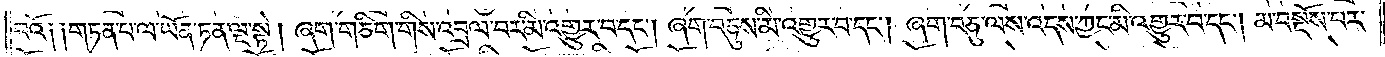བའོ༑ ༑གཏན་པ་ལ་ཡོན་ཏན་ལྔ་སྟེ། ཞག་གཅིག་གིས་འབྲལ་བར་མི་འགྱུར་བ་དང༌། ཞག་བཅུས་མི་འགྱུར་བ་དང༌། ཞག་བཅུ་ལས་འདས་ཀྱང་མི་འགྱུར་བ་དང༌། མ་བསྔོས་པར་
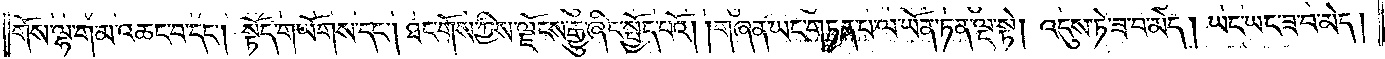གོས་ལྷག་མ་འཆང་བ་དང༌། སྟོད་གཡོགས་དང༌། ཐང་གོས་ཀྱིས་ལྗོངས་རྒྱུ་ཞིང་སྤྱོད་པའོ། །གཞན་ཡང་གཏན་པ་ལ་ཡོན་ཏན་ལྔ་སྟེ། འདུས་ཏེ་ཟ་བ་མེད། ཡང་ཡང་ཟ་བ་མེད།
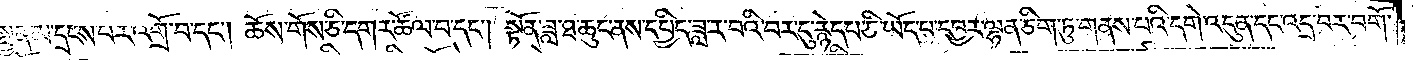སྤྱན་མ་དྲངས་པར་འགྲོ་བ་དང༌། ཆོས་གོས་ཅི་དགར་ཚོལ་བ་དང༌། སྟོན་ཟླ་ཐ་ཆུང་ནས་དཔྱིད་ཟླ་ར་བའི་བར་དུ་རྙེད་པ་ཅི་ཡོད་པ་དབྱར་ལྷན་ཅིག་ཏུ་གནས་པའི་དགེ་འདུན་དང་འདྲ་བར་བགོ་
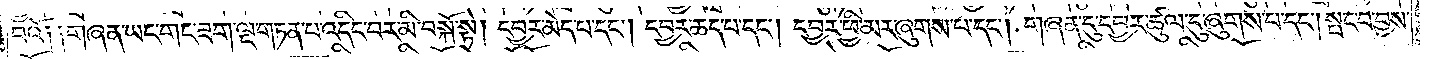བའོ༑ ༑གཞན་ཡང་གང་ཟག་ལྔ་གཏན་པ་འདིང་བར་མི་བསྐོ་སྟེ། དབྱར་མེད་པ་དང༌། དབྱར་ཆད་པ་དང༌། དབྱར་ཕྱི་མར་ཞུགས་པ་དང༌། གཞན་དུ་དབྱར་ཚུལ་དུ་ཞུགས་པ་དང༌། སྤང་བ་བྱས་
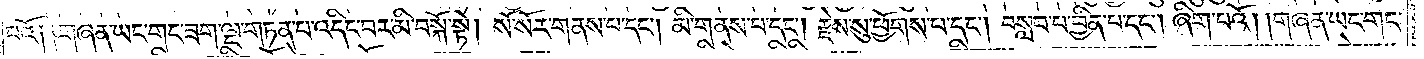པའོ༑ ༑གཞན་ཡང་གང་ཟག་ལྔ་གཏན་པ་འདིང་བར་མི་བསྐོ་སྟེ། སོ་སོར་གནས་པ་དང༌། མི་གནས་པ་དང༌། རྗེས་སུ་ཕྱོགས་པ་དང༌། བསླབ་པ་བྱིན་པ་དང༌། ཞིག་པའོ། །གཞན་ཡང་གང་
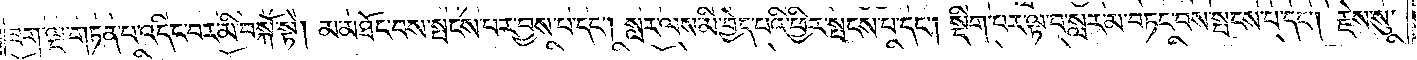ཟག་ལྔ་གཏན་པ་འདིང་བར་མི་བསྐོ་སྟེ། མ་མཐོང་བས་སྤངས་པར་བྱས་པ་དང༌། སླར་ལས་མི་བྱེད་པའི་ཕྱིར་སྤངས་པ་དང༌། སྡིག་པར་ལྟ་བ་སླར་མ་བཏང་བས་སྤངས་པ་དང༌། རྗེས་སུ་
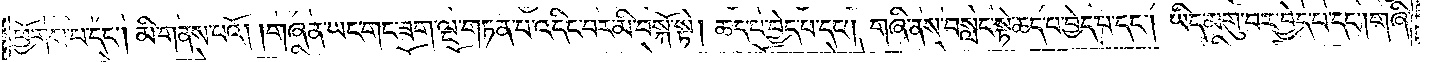ཕྱོགས་པ་དང༌། མི་གནས་པའོ། །གཞན་ཡང་གང་ཟག་ལྔ་གཏན་པ་འདིང་བར་མི་བསྐོ་སྟེ། ཆད་པ་བྱེད་པ་དང༌། གཞི་ནས་བསླང་སྟེ་ཆད་པ་བྱེད་པ་དང༌། ཡིད་མགུ་བར་བྱེད་པ་དང༌། གཞི་
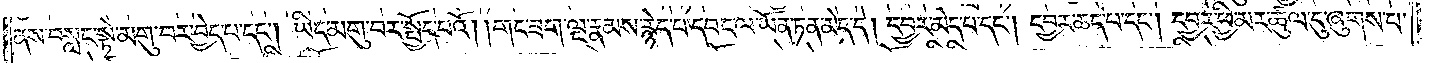ནས་བསླང་སྟེ་མགུ་བར་བྱེད་པ་དང༌། ཡིད་མགུ་བར་སྤྱོད་པའོ། །གང་ཟག་ལྔ་རྣམས་རྙེད་པ་དབང་ལ་ཡོན་ཏན་མེད་དེ། དབྱར་མེད་པ་དང༌། དབྱར་ཆད་པ་དང༌། དབྱར་ཕྱི་མར་ཚུལ་དུ་ཞུགས་པ་
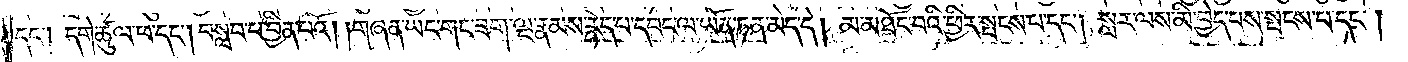དང༌། དགེ་ཚུལ་ཕ་དང༌། བསླབ་པ་བྱིན་པའོ། །གཞན་ཡང་གང་ཟག་ལྔ་རྣམས་རྙེད་པ་དབང་ལ་ཡོན་ཏན་མེད་དེ། མ་མཐོང་བའི་ཕྱིར་སྤངས་པ་དང༌། སླར་ལས་མི་བྱེད་པས་སྤངས་པ་དང༌།
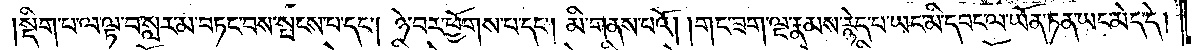སྡིག་པ་ལ་ལྟ་བ་སླར་མ་བཏང་བས་སྤངས་པ་དང༌། ཉེ་བར་ཕྱོགས་པ་དང༌། མི་གནས་པའོ། །གང་ཟག་ལྔ་རྣམས་རྙེད་པ་ཡང་མི་དབང་ལ་ཡོན་ཏན་ཡང་མེད་དེ།
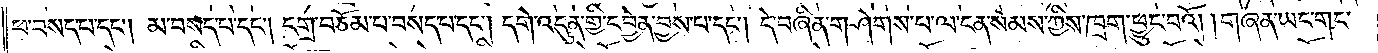ཕ་བསད་པ་དང༌། མ་བསད་པ་དང༌། དགྲ་བཅོམ་པ་བསད་པ་དང༌། དགེ་འདུན་གྱི་དབྱེན་བྱས་པ་དང༌། དེ་བཞིན་གཤེགས་པ་ལ་ངན་སེམས་ཀྱིས་ཁྲག་ཕྱུང་བའོ། །གཞན་ཡང་གང་
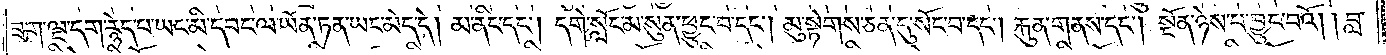ཟག་ལྔ་དག་རྙེད་པ་ཡང་མི་དབང་ལ་ཡོན་ཏན་ཡང་མེད་དེ། མ་ནིང་དང༌། དགེ་སློང་མ་སུན་ཕྱུང་བ་དང༌། མུ་སྟེགས་ཅན་དུ་སོང་བ་དང༌། རྐུན་གནས་དང༌། སྔོན་ཉེས་པ་བྱུང་བའོ། །བླ་
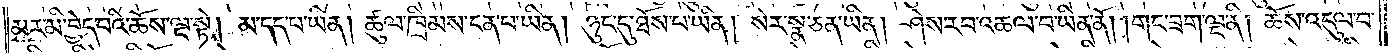མར་མི་བྱེད་བའི་ཆོས་ལྔ་སྟེ། མ་དད་པ་ཡིན། ཚུལ་ཁྲིམས་ངན་པ་ཡིན། །ཉུང་དུ་ཐོས་པ་ཡིན། སེར་སྣ་ཅན་ཡིན། ཤེས་རབ་འཆལ་བ་ཡིན་ནོ། །གང་ཟག་ལྔ་ནི། ཆོས་འདུལ་བ་
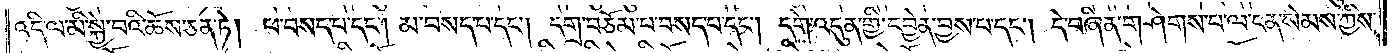འདི་ལ་མི་སྐྱེ་བའི་ཆོས་ཅན་ཏེ། ཕ་བསད་པ་དང༌། མ་བསད་པ་དང༌། དགྲ་བཅོམ་པ་བསད་པ་དང༌། དགེ་འདུན་གྱི་དབྱེན་བྱས་པ་དང༌། དེ་བཞིན་གཤེགས་པ་ལ་ངན་སེམས་ཀྱིས་
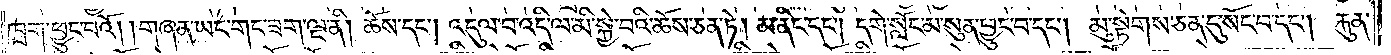ཁྲག་ཕྱུང་བའོ། །གཞན་ཡང་གང་ཟག་ལྔ་ནི། ཆོས་དང༌། འདུལ་བ་འདི་ལ་མི་སྐྱེ་བའི་ཆོས་ཅན་ཏེ། མ་ནིང་དང༌། དགེ་སློང་མ་སུན་ཕྱུང་བ་དང༌། མུ་སྟེགས་ཅན་དུ་སོང་བ་དང༌། རྐུན་
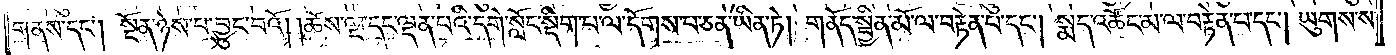གནས་དང༌། སྔོན་ཉེས་པ་བྱུང་བའོ། །ཆོས་ལྔ་དང་ལྡན་པའི་དགེ་སློང་སྡིག་པ་ལ་དོགས་པ་ཅན་ཡིན་ཏེ། གནོད་སྦྱིན་མོ་ལ་བརྟེན་པ་དང༌། སྨད་འཚོང་མ་ལ་བརྟེན་པ་དང༌། ཡུགས་ས་
